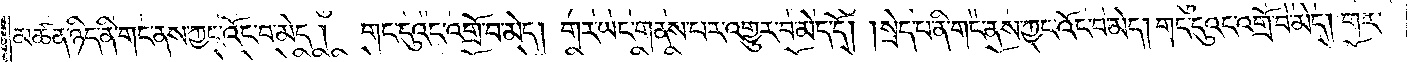མཚན་ཉིད་ནི་གང་ནས་ཀྱང་འོང་བ་མེད། གང་དུའང་འགྲོ་བ་མེད། གར་ཡང་གནས་པར་འགྱུར་བ་མེད་དོ། །སྲེད་པ་ནི་གང་ནས་ཀྱང་འོང་བ་མེད། གང་དུའང་འགྲོ་བ་མེད། གར་
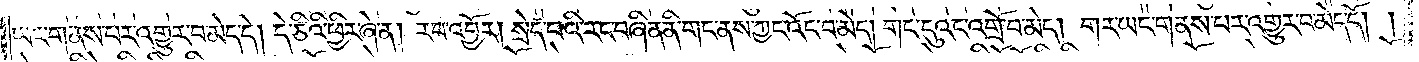ཡང་གནས་པར་འགྱུར་བ་མེད་དེ། དེ་ཅིའི་ཕྱིར་ཞེ་ན། རབ་འབྱོར། སྲེད་པའི་རང་བཞིན་ནི་གང་ནས་ཀྱང་འོང་བ་མེད། གང་དུའང་འགྲོ་བ་མེད། གར་ཡང་གནས་པར་འགྱུར་བ་མེད་དོ། །
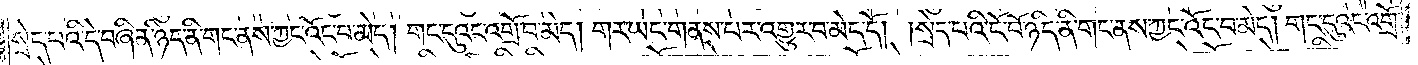སྲེད་པའི་དེ་བཞིན་ཉིད་ནི་གང་ནས་ཀྱང་འོང་བ་མེད། གང་དུའང་འགྲོ་བ་མེད། གར་ཡང་གནས་པར་འགྱུར་བ་མེད་དོ། །སྲེད་པའི་ངོ་བོ་ཉིད་ནི་གང་ནས་ཀྱང་འོང་བ་མེད། གང་དུའང་འགྲོ་
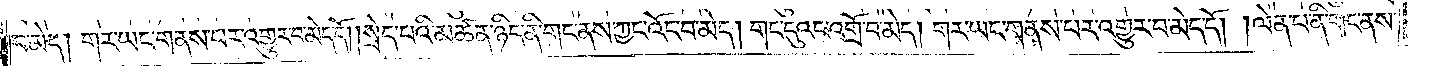བ་མེད། གར་ཡང་གནས་པར་འགྱུར་བ་མེད་དོ། །སྲེད་པའི་མཚན་ཉིད་ནི་གང་ནས་ཀྱང་འོང་བ་མེད། གང་དུའང་འགྲོ་བ་མེད། གར་ཡང་གནས་པར་འགྱུར་བ་མེད་དོ། །ལེན་པ་ནི་གང་ནས་
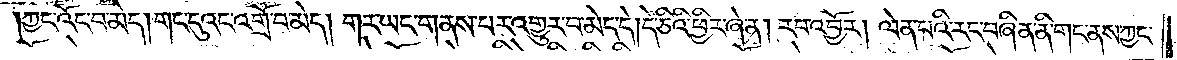ཀྱང་འོང་བ་མེད། གང་དུའང་འགྲོ་བ་མེད། གར་ཡང་གནས་པར་འགྱུར་བ་མེད་དེ། དེ་ཅིའི་ཕྱིར་ཞེ་ན། རབ་འབྱོར། ལེན་པའི་རང་བཞིན་ནི་གང་ནས་ཀྱང་
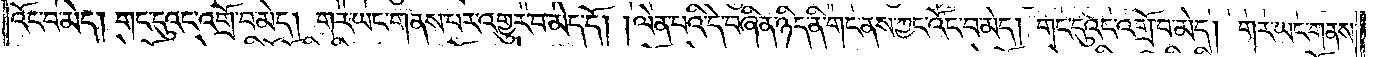འོང་བ་མེད། གང་དུའང་འགྲོ་བ་མེད། གར་ཡང་གནས་པར་འགྱུར་བ་མེད་དོ། །ལེན་པའི་དེ་བཞིན་ཉིད་ནི་གང་ནས་ཀྱང་འོང་བ་མེད། གང་དུའང་འགྲོ་བ་མེད། གར་ཡང་གནས་
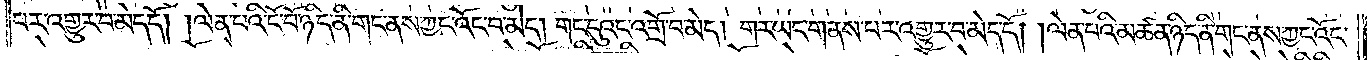པར་འགྱུར་བ་མེད་དོ། །ལེན་པའི་ངོ་བོ་ཉིད་ནི་གང་ནས་ཀྱང་འོང་བ་མེད། གང་དུའང་འགྲོ་བ་མེད། གར་ཡང་གནས་པར་འགྱུར་བ་མེད་དོ། །ལེན་པའི་མཚན་ཉིད་ནི་གང་ནས་ཀྱང་འོང་
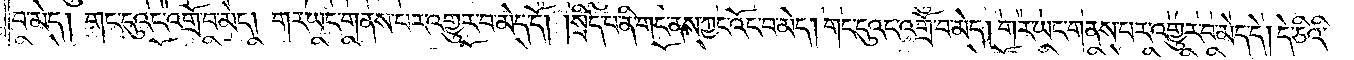བ་མེད། གང་དུའང་འགྲོ་བ་མེད། གར་ཡང་གནས་པར་འགྱུར་བ་མེད་དོ། །སྲིད་པ་ནི་གང་ནས་ཀྱང་འོང་བ་མེད། གང་དུའང་འགྲོ་བ་མེད། གར་ཡང་གནས་པར་འགྱུར་བ་མེད་དེ། དེ་ཅིའི་
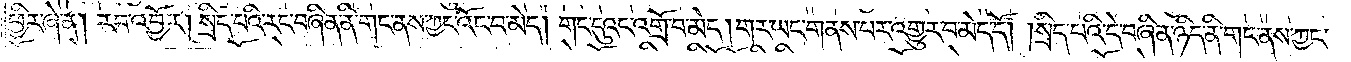ཕྱིར་ཞེ་ན། རབ་འབྱོར། སྲིད་པའི་རང་བཞིན་ནི་གང་ནས་ཀྱང་འོང་བ་མེད། གང་དུའང་འགྲོ་བ་མེད། གར་ཡང་གནས་པར་འགྱུར་བ་མེད་དོ། །སྲིད་པའི་དེ་བཞིན་ཉིད་ནི་གང་ནས་ཀྱང་
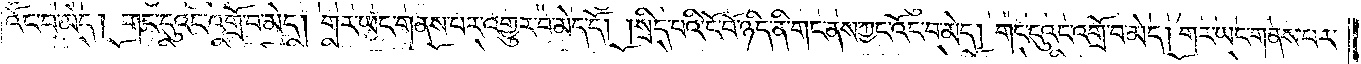འོང་བ་མེད། གང་དུའང་འགྲོ་བ་མེད། གར་ཡང་གནས་པར་འགྱུར་བ་མེད་དོ། །སྲིད་པའི་ངོ་བོ་ཉིད་ནི་གང་ནས་ཀྱང་འོང་བ་མེད། གང་དུའང་འགྲོ་བ་མེད། གར་ཡང་གནས་པར་
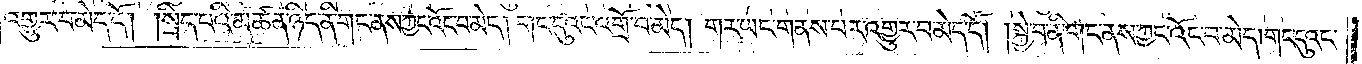འགྱུར་བ་མེད་དོ། །སྲིད་པའི་མཚན་ཉིད་ནི་གང་ནས་ཀྱང་འོང་བ་མེད། གང་དུའང་འགྲོ་བ་མེད། གར་ཡང་གནས་པར་འགྱུར་བ་མེད་དོ། །སྐྱེ་བ་ནི་གང་ནས་ཀྱང་འོང་བ་མེད། གང་དུའང་
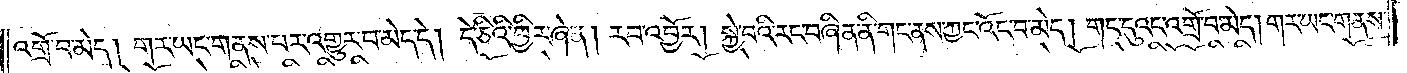འགྲོ་བ་མེད། གར་ཡང་གནས་པར་འགྱུར་བ་མེད་དེ། དེ་ཅིའི་ཕྱིར་ཞེ་ན། རབ་འབྱོར། སྐྱེ་བའི་རང་བཞིན་ནི་གང་ནས་ཀྱང་འོང་བ་མེད། གང་དུའང་འགྲོ་བ་མེད། གར་ཡང་གནས་
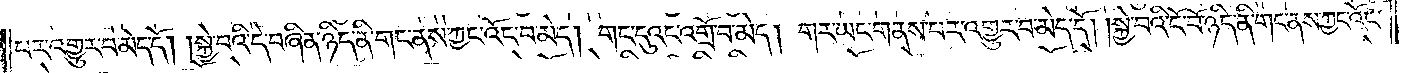པར་འགྱུར་བ་མེད་དོ། །སྐྱེ་བའི་དེ་བཞིན་ཉིད་ནི་གང་ནས་ཀྱང་འོང་བ་མེད། གང་དུའང་འགྲོ་བ་མེད། གར་ཡང་གནས་པར་འགྱུར་བ་མེད་དོ། །སྐྱེ་བའི་ངོ་བོ་ཉིད་ནི་གང་ནས་ཀྱང་འོང་
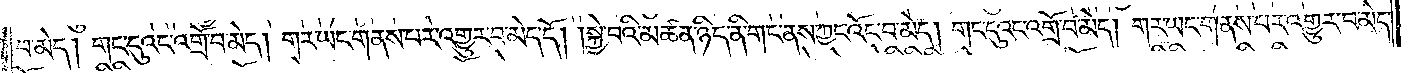བ་མེད། གང་དུའང་འགྲོ་བ་མེད། གར་ཡང་གནས་པར་འགྱུར་བ་མེད་དོ། །སྐྱེ་བའི་མཚན་ཉིད་ནི་གང་ནས་ཀྱང་འོང་བ་མེད། གང་དུའང་འགྲོ་བ་མེད། གར་ཡང་གནས་པར་འགྱུར་བ་མེད་
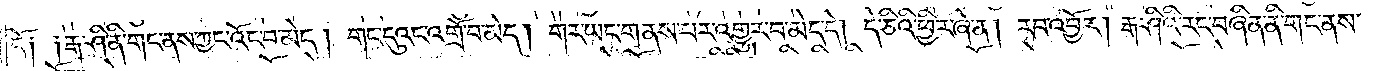དོ། །རྒ་ཤི་ནི་གང་ནས་ཀྱང་འོང་བ་མེད། གང་དུའང་འགྲོ་བ་མེད། གར་ཡང་གནས་པར་འགྱུར་བ་མེད་དེ། དེ་ཅིའི་ཕྱིར་ཞེ་ན། རབ་འབྱོར། རྒ་ཤིའི་རང་བཞིན་ནི་གང་ནས་
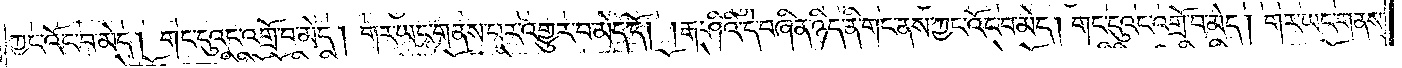ཀྱང་འོང་བ་མེད། གང་དུའང་འགྲོ་བ་མེད། གར་ཡང་གནས་པར་འགྱུར་བ་མེད་དོ། །རྒ་ཤིའི་དེ་བཞིན་ཉིད་ནི་གང་ནས་ཀྱང་འོང་བ་མེད། གང་དུའང་འགྲོ་བ་མེད། གར་ཡང་གནས་
